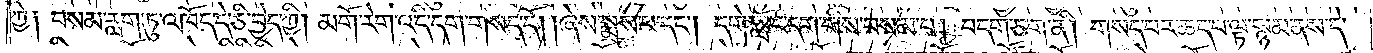ཀྱེ། བསམ་རླག་ཏུ་འཁོད་དེ་ཅི་བྱེད་ཀྱི། མགོ་རེག་འདི་དག་གསད་དོ། །ཞེས་སྨྲས་པ་དང༌། དགེ་སློང་དག་གིས་བསམ་པ། བདག་ཅག་ནི། གསད་པར་ཆད་པ་ལྟ་སྙམ་ནས་དེ་
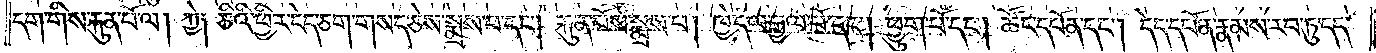དག་གིས་རྐུན་པོ་ལ། ཀྱེ། ཅིའི་ཕྱིར་ངེད་ཅག་གསད་ཅེས་སྨྲས་པ་དང༌། རྐུན་པོས་སྨྲས་པ། ཁྱེད་ལ་རྒྱལ་པོ་དང༌། ཕྱུག་པོ་དང༌། ཚོང་དཔོན་དང༌། དེད་དཔོན་རྣམས་རབ་ཏུ་དད་
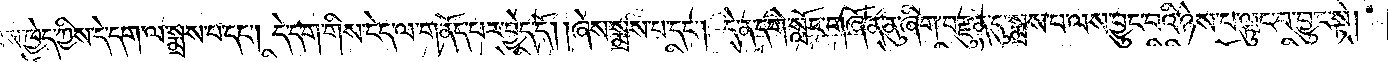པས་ཁྱེད་ཀྱིས་དེ་དག་ལ་སྨྲས་པ་དང༌། དེ་དག་གིས་ངེད་ལ་གནོད་པར་བྱེད་དོ། །ཞེས་སྨྲས་པ་དང༌། དེ་ན་དགེ་སློང་གཞོན་ནུ་ཞིག་བརྫུན་དུ་སྨྲས་པ་ལས་བྱུང་བའི་ཉེས་པ་ལྟུང་བ་བྱུང་སྟེ།
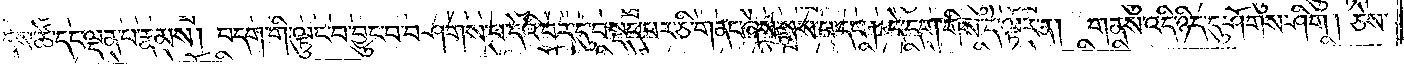དེས་ཚེ་དང་ལྡན་པ་རྣམས། བདག་གི་ལྟུང་བ་བྱུང་བ་བཤགས་པ་དེའི་བར་དུ་བསྡད་པར་ཅི་གནང་ཞེས་སྨྲས་པ་དང༌། དེ་དག་གིས་དེ་ལྟར་ན། གནས་འདི་ཉིད་དུ་ཤོགས་ཤིག །ཅེས་
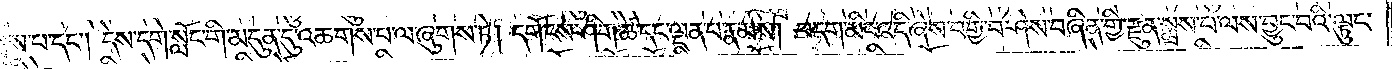སྨྲས་པ་དང༌། དེས་དགེ་སློང་གི་མདུན་དུ་འཆགས་པ་ལ་ཞུགས་ཏེ། དགོངས་ཤིག་ཚེ་དང་ལྡན་པ་རྣམས། བདག་མིང་འདི་ཞེས་བགྱི་བ་ཤེས་བཞིན་གྱི་རྫུན་སྨྲས་པ་ལས་བྱུང་བའི་ལྟུང་
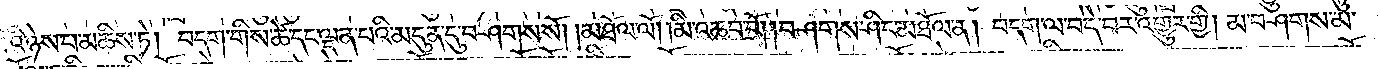བའི་ཉེས་པ་མཆིས་ཏེ། བདག་གིས་ཚེ་དང་ལྡན་པའི་མདུན་དུ་བཤགས་སོ། །མཐོལ་ལོ། །མི་འཆབ་བོ། །བཤགས་ཤིང་མཐོལ་ན། བདག་ལ་བདེ་བར་འགྱུར་གྱི། མ་བཤགས་མ་
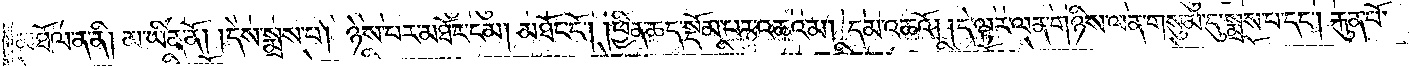མཐོལ་ན་ནི། མ་ཡིན་ནོ། །དེས་སྨྲས་པ། ཉེས་པར་མཐོང་ངམ། མཐོང་ངོ༌། །ཕྱིན་ཆད་སྡོམ་པར་འཆའམ། དམ་འཆའོ། །དེ་ལྟར་ལན་གཉིས་ལན་གསུམ་དུ་སྨྲས་པ་དང༌། རྐུན་པོ་
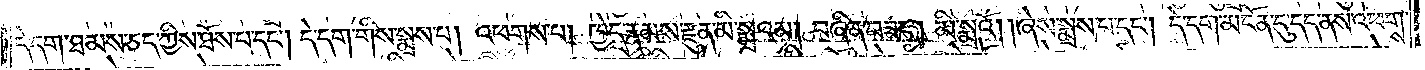དེ་དག་ཐམས་ཅད་ཀྱིས་ཐོས་པ་དང༌། དེ་དག་གིས་སྨྲས་པ། འཕགས་པ། ཁྱེད་རྣམས་རྫུན་མི་སྨྲའམ། བཞིན་བཟང༌། མི་སྨྲའོ། ཞེས་སྨྲས་པ་དང༌། དེ་དག་མངོན་དུ་དད་ནས་འཕགས་
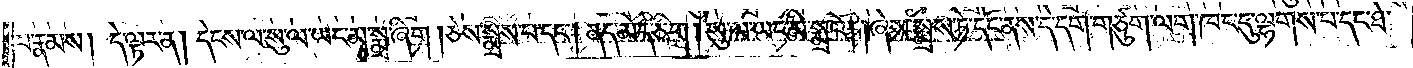པ་རྣམས། དེ་ལྟར་ན། དེངས་ལ་སུ་ལ་ཡང་མ་སྨྲ་ཞིག །ཅེས་སྨྲས་པ་དང༌། ནད་མེད་ཅིག །སུ་ལ་ཡང་མི་སྨྲའོ། །ཞེས་སྨྲས་ཏེ་དོང་ནས་དེ་དག་གཙུག་ལག་ཁང་དུ་ལྷགས་པ་དང་ཐེ་
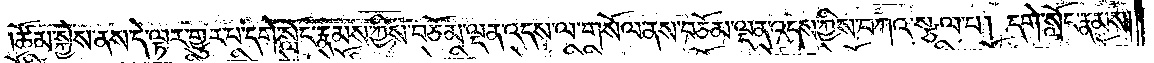ཚོམ་སྐྱེས་ནས་དེ་ལྟར་གྱུར་པ་དགེ་སློང་རྣམས་ཀྱིས་བཅོམ་ལྡན་འདས་ལ་གསོལ་ནས་བཅོམ་ལྡན་འདས་ཀྱིས་བཀའ་སྩལ་པ། དགེ་སློང་རྣམས།
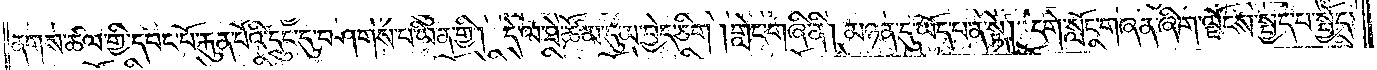ནགས་ཚལ་གྱི་དབང་པོ་རྐུན་པོའི་དྲུང་དུ་བཤགས་པ་ཡིན་གྱི། དེ་ལ་ཐེ་ཚོམ་དུ་མ་བྱེད་ཅིག །གླེང་གཞི་ནི། མཉན་དུ་ཡོད་པ་ན་སྟེ། དགེ་སློང་གཞན་ཞིག་ལྗོངས་སྤྱད་པ་སྤྱོད་
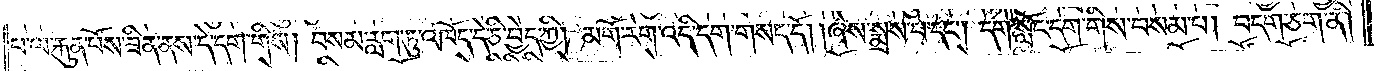པ་ལ་རྐུན་པོས་ཟིན་ནས་དེ་དག་གིས། བསམ་རླག་ཏུ་འཁོད་དེ་ཅི་བྱེད་ཀྱི། མགོ་རེག་འདི་དག་གསད་དོ། །ཞེས་སྨྲས་པ་དང༌། དགེ་སློང་དག་གིས་བསམ་པ། བདག་ཅག་ནི།
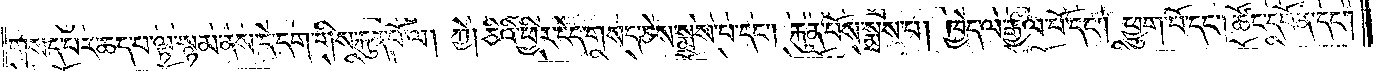གསད་པར་ཆད་པ་ལྟ་སྙམ་ནས་དེ་དག་གིས་རྐུན་པོ་ལ། ཀྱེ། ཅིའི་ཕྱིར་ངེད་གསད་ཅེས་སྨྲས་པ་དང༌། རྐུན་པོས་སྨྲས་པ། ཁྱེད་ལ་རྒྱལ་པོ་དང༌། ཕྱུག་པོ་དང༌། ཚོང་དཔོན་དང༌།
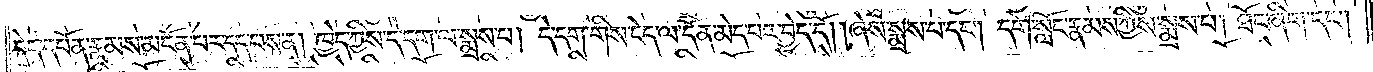དེད་དཔོན་རྣམས་མངོན་པར་དད་པས་ན། ཁྱེད་ཀྱིས་དེ་དག་ལ་སྨྲས་པ། དེ་དག་གིས་ངེད་ལ་དོན་མེད་པར་བྱེད་དོ། །ཞེས་སྨྲས་པ་དང༌། དགེ་སློང་རྣམས་ཀྱིས་སྨྲས་པ། ཐོང་ཞིག་དང༌།
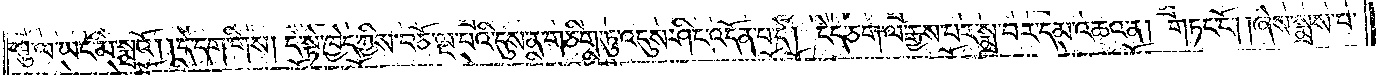སུ་ལ་ཡང་མི་སྨྲའོ། །དེ་དག་གིས། དེ་སྟེ་ཁྱེད་ཀྱིས་བཅོ་ལྔ་པའི་དུས་ན་གཅིག་ཏུ་འདུས་ཤིང་འདོན་པ་དེ། ངེད་ཅག་ལ་རྒྱས་པར་སྨྲ་བར་དམ་འཆའ་ན། གཏང་ངོ༌། །ཞེས་སྨྲས་པ་
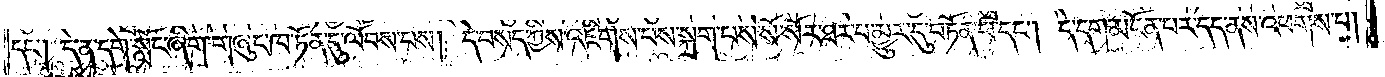དང༌། དེ་ན་དགེ་སློང་ཞིག་གཞུང་ཁ་ཏོན་དུ་ལོབས་པས། དེ་བསད་ཀྱིས་འཇིགས་པས་སྐྲག་པས་སོ་སོར་ཐར་པ་མྱུར་དུ་བཏོན་པ་དང༌། དེ་དག་མངོན་པར་དད་ནས་འཕགས་པ།
